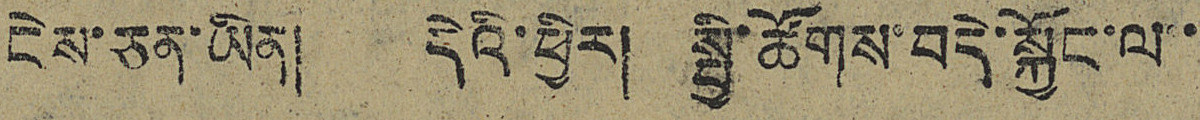ངེས་ཅན་ཡིན། དེའི་ཕྱིར། སྤྱི་ཚོགས་བདེ་སྐྱོང་ལ་་
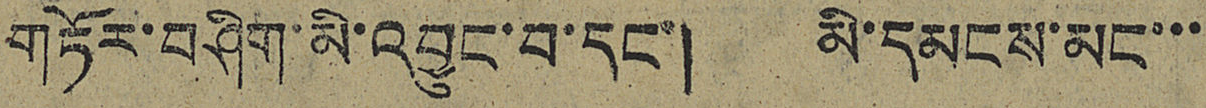གཏོར་བཤིག་མི་འབྱུང་བ་དང་། མི་དམངས་མང་་་
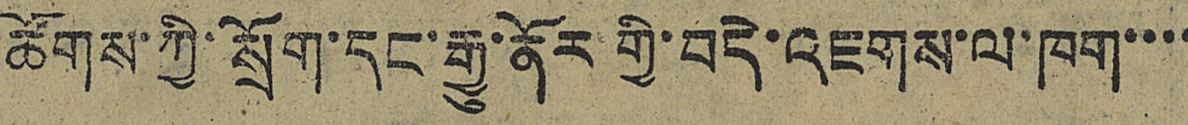ཚོགས་ཀྱི་སྲོག་དང་རྒྱུ་ནོར་གྱི་བདེ་འཇགས་ལ་ཁག་་་་
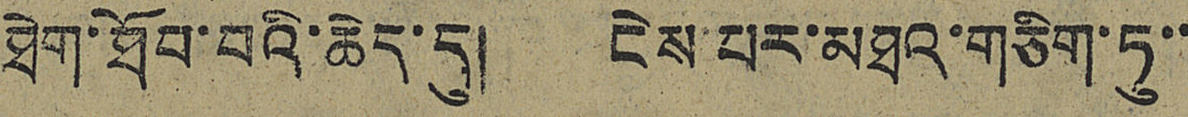ཐེག་ཐོབ་བའི་ཆེད་དུ། ངེས་པར་མཐའ་གཅིག་ཏུ་་
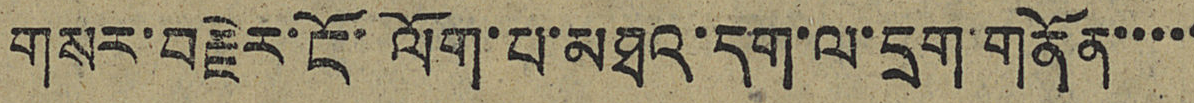གསར་བརྗེར་ངོ་ལོག་པ་མཐའ་དག་ལ་དྲག་གནོན་་་་་
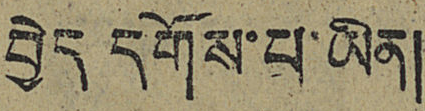བྱེད་དགོས་པ་ཡིན།
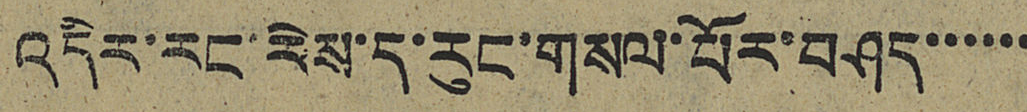འདིར་རང་རེས་ད་རུང་གསལ་པོར་བཤད་་་་་་
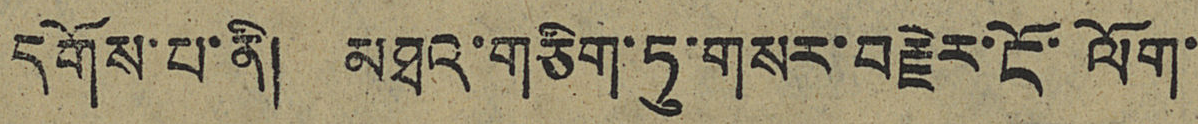དགོས་པ་ནི། མཐའ་གཅིག་ཏུ་གསར་བརྗེར་ངོ་ལོག་
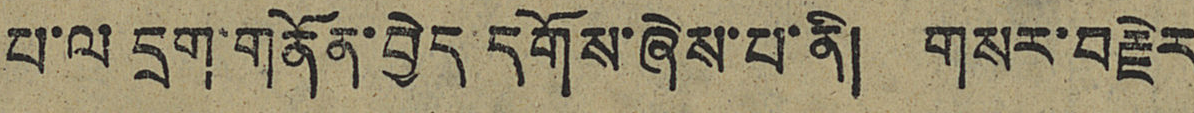པ་ལ དྲག་གནོན་བྱེད དགོས་ཞེས་པ་ནི། གསར་བརྗེར
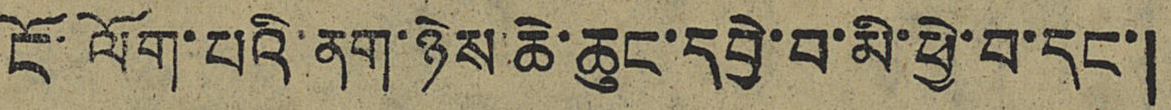ངོ་ལོག་པའི་ནག་ཉེས་ཆེ་ཆུང་དབྱེ་བ་མི་ཕྱེ་བ་དང་།
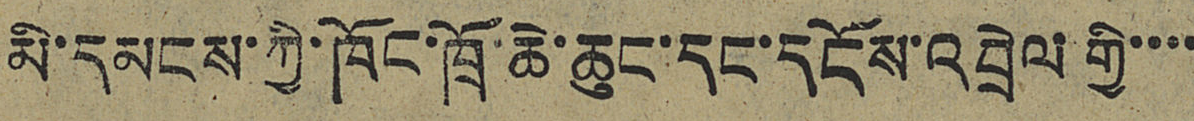མི་དམངས་ཀྱི་ཁོང་ཁྲོ་ཆེ་ཆུང་དང་དངོས་འབྲེལ་གྱི་་་་
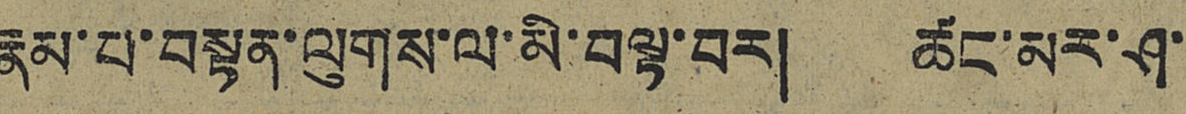རྣམ་པ་བསྟན་ལུགས་ལ་མི་བལྟ་བར། ཚང་མར་ཤ་
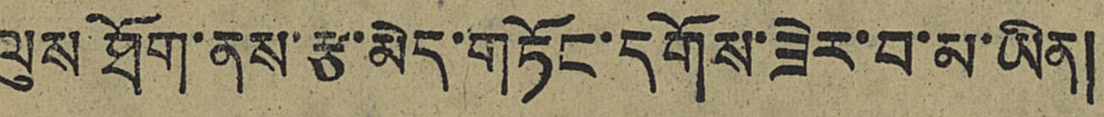ལུས ཐོག་ནས་རྩ་མེད་གཏོང་དགོས་ཟེར་བ་མ་ཡིན།
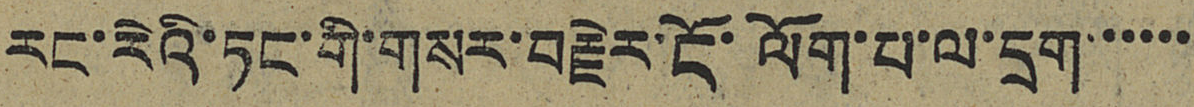རང་རེའི་ཏང་གི་གསར་བརྗེར་ངོ་ལོག་པ་ལ་དྲག་་་་་་
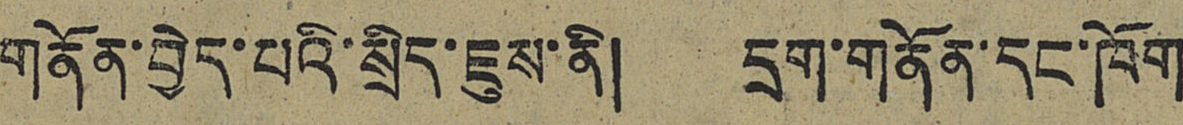གནོན་བྱེད་པའི་སྲིད་ཇུས་ནི། དྲག་གནོན་དང་ཁོག
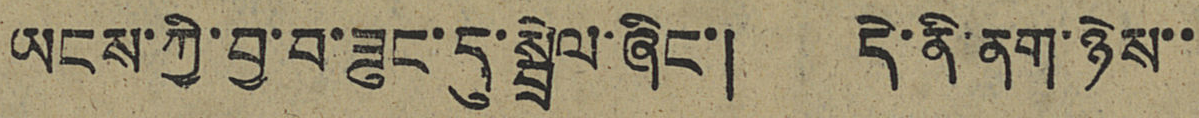ཡངས་ཀྱི་བྱ་བ་ཟུང་དུ་སྦྲེལ་ཞིང་། དེ་ནི་ནག་ཉེས་་
